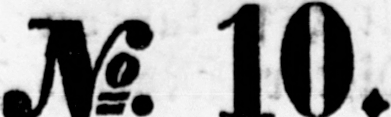No. 10.
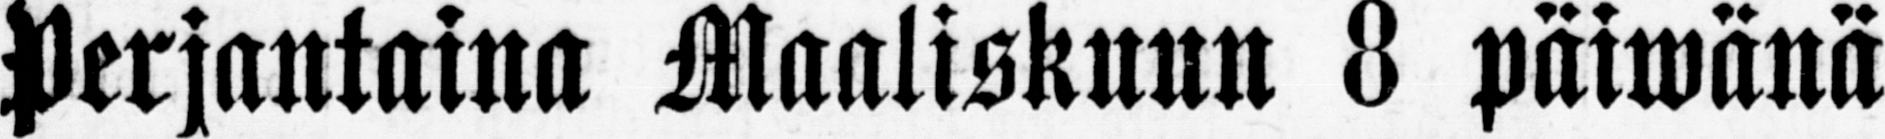Perjantaina Maaliskunn 8 päiwänä
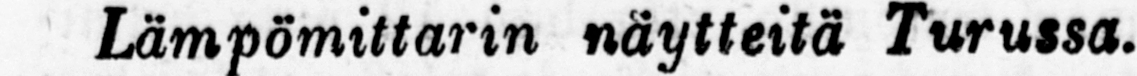Lämpömittarin näytteitä Turussa.
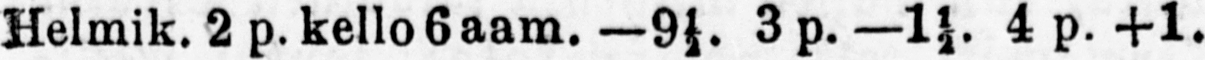Helmik. 2 p. kello 6 aam. —9½. 3 p.—1½. 4 p.+1.
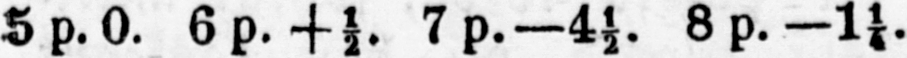5 p. 0. 69. +½. 7 p.—4½. 89.—1½.
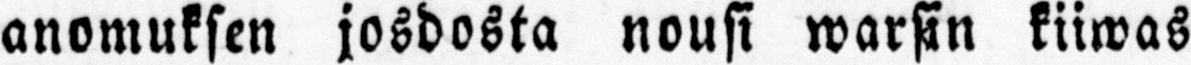anomuksen josdosta nousi warsin kiiwas
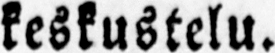keskustelu.
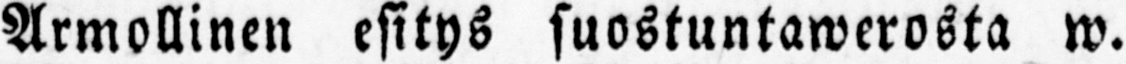Armollinen esitys suostuntawerosta w.
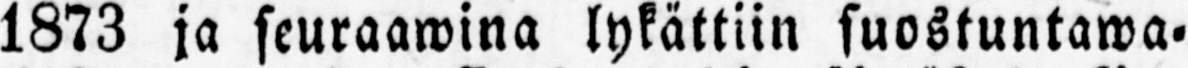1873 ja seuraawina lykättiin suostuntawa-
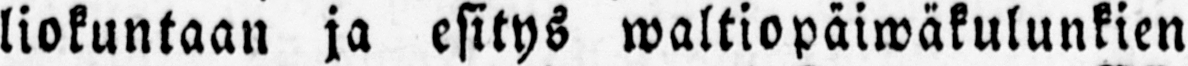liokuntaan ja esitys waltiopäiwäkulunkien
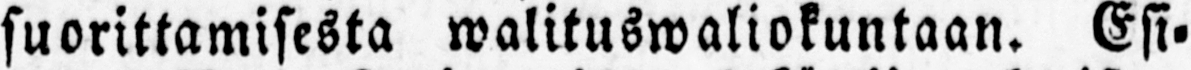suorittamisesta walituswaliokuntaan. Esi-
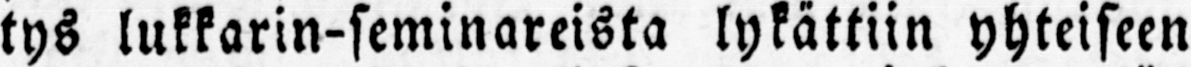tys lukkarin-seminareista lykättiin yhteiseen
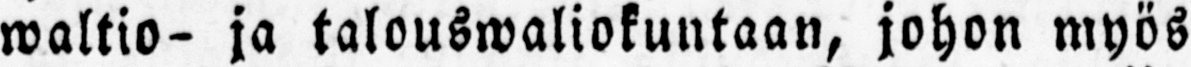waltio- ja talouswaliokuntaan, johon myös
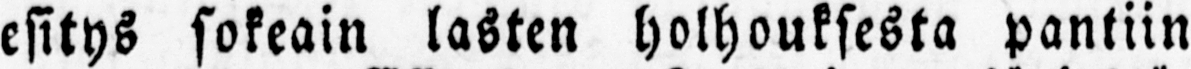esitys sokeain lasten holhouksesta pantiin
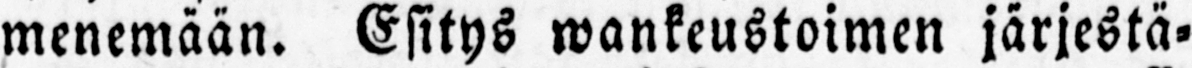menemään. Esitys wankeustoimen järjestä-
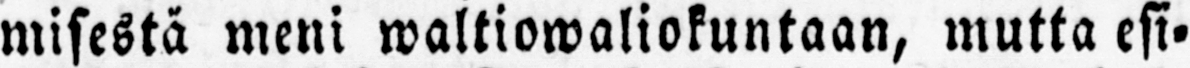misestä meni waltiowaliokuntaan, mutta esi-
